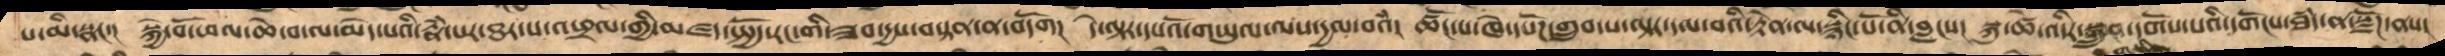པ་མི་སྣང་།  སྐྱེ་བོ་ཕལ་ཆེ་བ་ལ་མེད་པའི་རྣཾ་པར་ཐར་པ་འཕྲལ་གྱི་མཛད་སྤྱོད་རང་གི་ཟབ་དྱས་བསྟན་ན་བདོག།  དེ་ལྟར་དཔའོ་གཡུལ་ལས་དྱལ་བའི།  ཚོང་པ་ཁེ་དཔོཌ་གྲུབ་པ་ལྟར་དལ་བའི་རྟེན་ལ་སྙིང་པོ་ནི་བླངས།  སྐུ་ཚེས་འདིར་སྒྲུབ་དགོས་པའི་དགོངས་ཐཾད་ན་སྫོཌ་ནས།
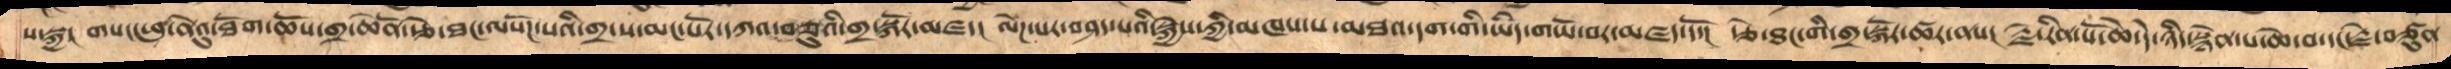ས་སྐྱ།  གསང་ཕུ་ནེའུ་ཐོག་ཆོས་གྲ་ཆེནོ་རྩེ་ཐང་ལསོཌ་པའི་གྲ་ས་མང་པོར་དཀའ་བཅུའི་གྲ་སྐོར་མཛད།  ལེཌ་པར་བཤད་པའི་སྐྱེས་ཀྱི་མཁས་པ་མཐའ་དག་གི་ཡིད་གཡོ་བར་མཛད་དོ་།  རྩེ་ཐང་གི་གྲ་སྐོར་ཚར་ནས།  རྗེ་རིན་པོ་ཆེ་དེ་ཉིད་སྙེན་པ་ཆེ་བ་དང་རྗེ་བཙུན
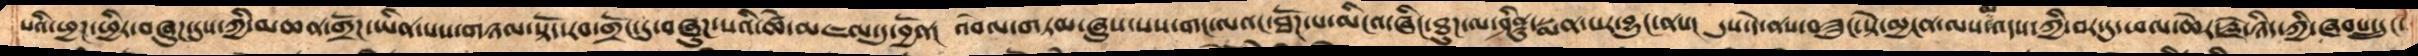པའི་ཕྱཌ་ཕྱིར་བཞུཌ་དུས་ཀྱི་མཆན་གྲོཌ་ཡིན་པས་གཉམ་སྟོད་རབ་གྲོང་དུ་བཞུཌ་པའི་ཚེ་མཇལ་དུ་བྱོན།  འབོལ་གཏམ་ཞུས་པས་གང་ལའང་ཐོཌ་པ་མིངའ་ཞིང་ཐུཌ་ལ་ཤིནྟུ་སྨན་པར་བྱུང་ནས།  དུས་དེ་ནས་བཟུང་སྟེ་མྱངན་ལས་མ་འདས་ཀྱི་བར་དུ་ཕལ་ཆེར་རྗེ་ཉིད་ཀྱི་ཞབས་དྲུང་
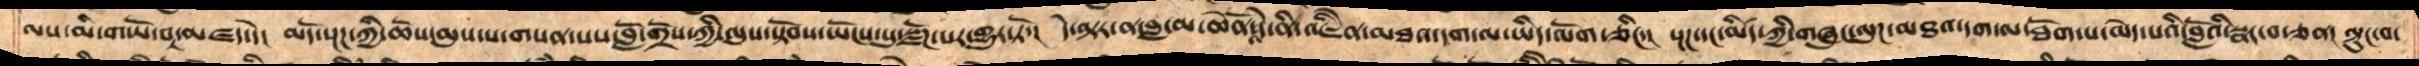ལས་མི་གཡོ་བར་མཛད་དེ། མདོ་སྔཌ་ཀྱི་ཆོས་མུས་པ་གསན་པས་བློ་གྲོས་ཀྱི་ལུས་སྟོབས་ཡོངས་སུ་སྫོཌ་པར་གྱུར་ཏོ་།  དེ་ལྟར་ན་བླ་མ་ཆེནོ་དེ་ནི་འཇིནེ་མཐའ་དག་ལ་ཡིད་ལོག་ཅིང་། སྔཌ་དང་མིཛད་ཀྱི་གཞུང་ལུཌ་མཐའ་དག་ལ་ཐོག་པ་མེད་པའི་བློའི་སྣང་བ་ཅན། ལྟུང་བ་
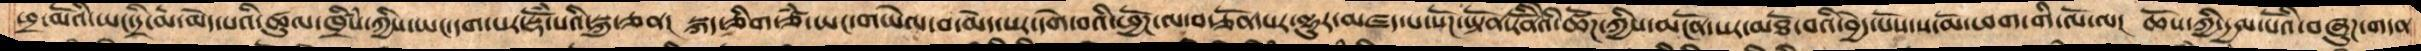ཕྲ་མོའི་ཡང་དྲི་མ་མེད་པའི་ཚུལ་ཁྲིཾས་ཀྱིས་ཡང་དག་པར་སྡོཾ་པའི་སྐུ་ཅན།  སྐད་ཅིག་ཙཾ་ཡང་གཡེལ་བ་མེད་པར་དགེ་བའི་ཕྱོཌ་ལ་བརྩོན་པར་ལྷུར་མཛད་པ་སོཌ་ཡྟོན་རིནོེའི་ཚོཌ་ཀྱིས་མངོན་པར་མཐོ་བའི་བྱེད་པོས་ས་མོ་ཕག་གི་ལོ་ལ།  ཆོས་ཀྱི་དྱལ་པོའི་བཞུཌ་གདན
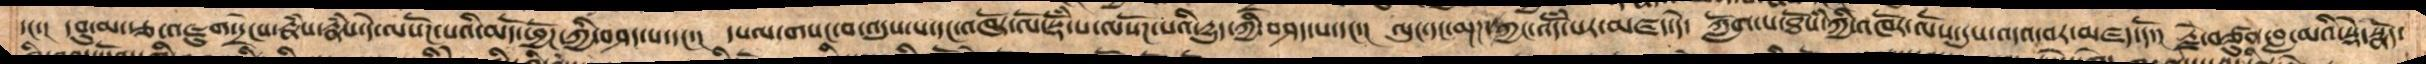དང་།  དབུ་མ་རྩ་འཇུག་དྲངེས་རྣཾས་རྣཾས་དེ་ལསོཌ་པའི་མདོ་ཕྱོཌ་ཀྱི་བཤད་པ་དང་།  དཔལ་གསང་བ་འདུས་པ་དང་འཁོར་ལོ་སྡོཾ་པ་ལསོཌ་པའི་དྱུད་ཀྱི་བཤད་པ་དང་།  ལུང་དང་མྔཌ་ཀྱང་འདོཾ་པར་མཛད་དེ།  ཀློག་པ་ཐོསཾ་ཀྱི་འཁོར་ལོས་དུས་འདའ་བར་མཛད་དོ།  རྗེ་བཙུན་བླ་མའི་སྡེ་སྣོད་
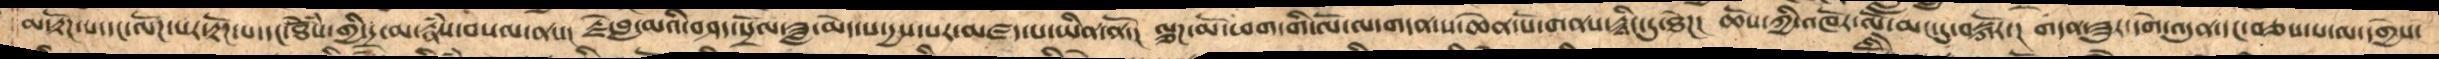མ་རྟོཌ་པ་དང་ལོཌ་པར་རྟོཌ་པ་དང་ཐེསོཾ་གྱི་དྲ་མ་རྣཾས་བསལ་ནས།  རྗེ་བླ་མའི་བཤད་སྲོལ་ཟླ་མེད་པ་དྱས་པར་མཛད་པ་ཡིན་ནོ།  ལྕཌ་མོ་ཕག་གི་ལོ་ལ་གདན་ས་ཆེན་པོ་གནས་རྙིང་དུ་ཐེཌ།  ཆོས་ཀྱི་འཁོར་ལོ་མང་དུ་བསྐོར་།  གདན་ཟུར་དགེ་འདུན་དང་བཅས་པ་ལ་དགྱེས་
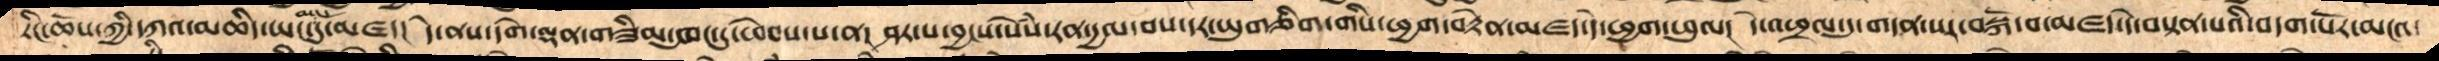རིང་ཆོས་ཀྱི་དཀའ་མཆིད་ཡང་མང་དུ་མཛད།  དེ་ནས་དགེ་ལྡན་གཟིམ་ཁང་དུ་ཕེབས་པ་ན། ཤར་པ་བྱངས་སེཾས་རན་དྱལ་བས་དར་ཡུགཅིག་གིས་ཕྱག་བརྟེན་མཛད་དེ་ཕྱག་ཕུལ།  དེ་འཕྲལ་དུ་གདན་སར་བསྐོ་བ་མཛད་དེ་བསྟན་པའི་བདག་པོར་མངའ་
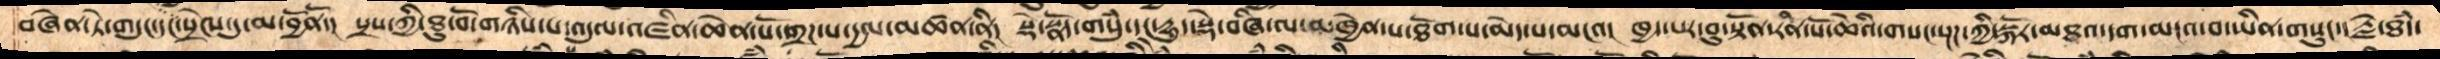བཞེན་ཏེ་གདུང་དང་སྲེལ་དུ་མ་བྱོནོ་།  སྲས་ཀྱི་ཐུ་བོ་གཉིས་པ་འདུལ་འཛིན་ཆེན་པོ་གྲཌ་པ་དྱལ་མཚན་ནི།  སྡེ་སྣོད་གསུཾ་དང་དྱུད་སྡེ་བཞི་ལ་མཁྱེན་པ་ཐོག་པ་མེད་པ་མངའ།  ཁྱད་པར་བུ་སྟོན་རིན་པོ་ཆེའི་གསང་སྔཌ་ཀྱི་སྐོར་མཐའ་དག་མངའ་བ་ཡིན་གསུང་། རྗེ་ཐཾད་
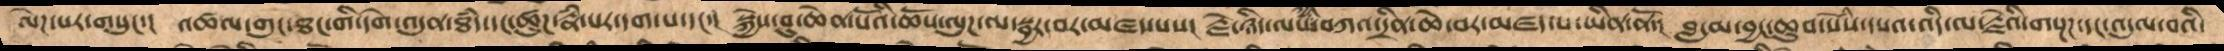ལེཌ་པར་གསུང་། འཚལ་གུང་ཐང་གི་དགེ་འདུན་ཐཾད་དང་ཚུཌ་རྣཾ་པར་དག་པ་དང་། སྐྱེས་བུ་ཆེན་པོའི་ཆོས་ལུཌ་ལ་སྦྱར་བར་མཛད་པས། རྗེ་ཉིད་ལ་ཡི་བཀའ་དྲིན་ཆེ་བར་མཛད་པ་ཡིན་ནོ་། བླ་མ་བྱང་ཆུབ་སེཾས་དཔའ་འདི་ལ་རྗེའི་གསྔཌ་དང་འདུལ་བའི་
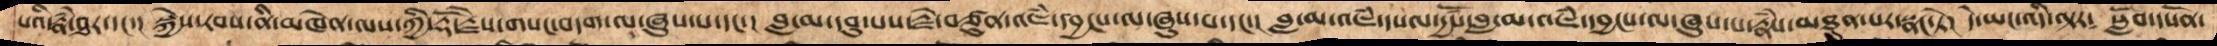པའི་རྣཾ་ཐར་དང་།  སྐྱེས་རབས་ནི་མཁེན་ལས་ཀྱི་རྡོ་རྗེས་གསང་བདག་ལ་ཞུས་པ་དང་།  བླ་མ་དབུ་བས་རྗེ་བཙུན་འཇཾ་དབྱངས་ལ་ཞུས་པ་དང་།  བླ་མ་འཇཾ་དཔལ་དྱཚོས་བླ་མ་འཇཾ་དབྱངས་ལ་ཞུས་པ་རྣཾས་མཐུན་པར་སྣང་སྟེ།  དེ་ཡང་འདི་ལྟར། སློབ་དཔོན་
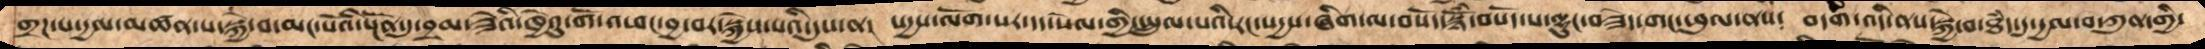གྲཌ་པ་དྱལ་མཚན་པ་སྐྱེ་བ་མང་པོའི་སྔོན་དུ་བྲམ་ཟེའི་ཁྱེའུ་གོ་འཕང་བྱ་བར་སྐྱེས་པའི་དུས་ན།  སདྱས་ལོག་པར་དད་སེལ་གྱི་སྤྲུལ་པའི་རང་སདྱས་ཞིག་ལ་བསོད་སྙོཾ་བསོད་པ་ལྷུང་བཟེད་གང་ཕུལ་ནས༴  བདག་འདི་ནས་སྐྱེ་བ་ཐཾད་དུ་དྱལ་བ་ཀུན་གྱི་
